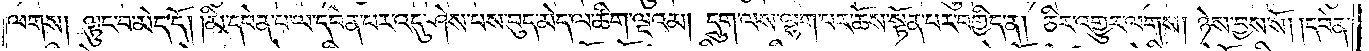ལགས། ལྟུང་བ་མེད་དོ། །མི་དབེན་པ་ལ་དབེན་པར་འདུ་ཤེས་པས་བུད་མེད་ལ་ཚིག་ལྔའམ། དྲུག་ལས་ལྷག་པར་ཆོས་སྟོན་པར་བགྱིད་ན། ཅིར་འགྱུར་ལགས། ཉེས་བྱས་སོ། །དབེན་
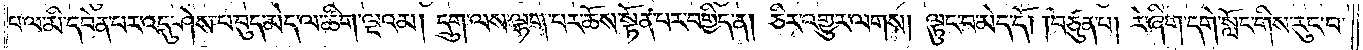པ་ལ་མི་དབེན་པར་འདུ་ཤེས་པ་བུད་མེད་ལ་ཚིག་ལྔའམ། དྲུག་ལས་ལྷག་པར་ཆོས་སྟོན་པར་བགྱིད་ན། ཅིར་འགྱུར་ལགས། ལྟུང་བ་མེད་དོ། །བཙུན་པ། རེ་ཞིག་དགེ་སློང་གིས་རུང་བ་
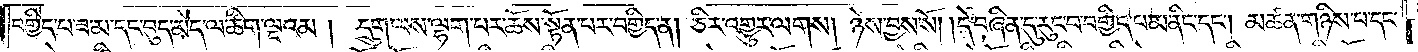བགྱིད་པ་ཟ་མ་དང་བུད་མེད་ལ་ཚིག་ལྔའམ།  དྲུག་ལས་ལྷག་པར་ཆོས་སྟོན་པར་བགྱིད་ན། ཅིར་འགྱུར་ལགས། ཉེས་བྱས་སོ། །དེ་བཞིན་དུ་རུང་བ་བགྱིད་པ་མ་ནིང་དང༌། མཚན་གཉིས་པ་དང་
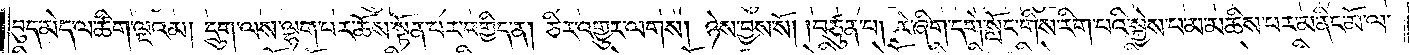བུད་མེད་ལ་ཚིག་ལྔའམ། དྲུག་ལས་ལྷག་པར་ཆོས་སྟོན་པར་བགྱིད་ན། ཅིར་འགྱུར་ལགས། ཉེས་བྱས་སོ། །བཙུན་པ། རེ་ཞིག་དགེ་སློང་གིས་རིག་པའི་སྐྱེས་པ་མ་མཆིས་པར་མ་ནིང་མོ་ལ་
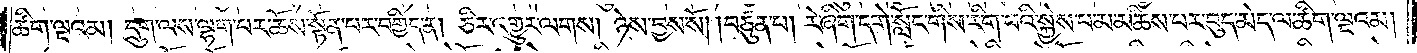ཚིག་ལྔའམ། དྲུག་ལས་ལྷག་པར་ཆོས་སྟོན་པར་བགྱིད་ན། ཅིར་འགྱུར་ལགས། ཉེས་བྱས་སོ། །བཙུན་པ། རེ་ཞིག་དགེ་སློང་གིས་རིག་པའི་སྐྱེས་པ་མ་མཆིས་པར་བུད་མེད་ལ་ཚིག་ལྔའམ།
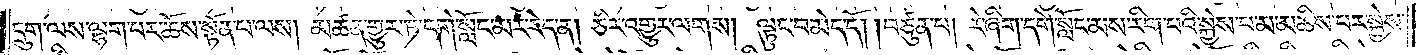དྲུག་ལས་ལྷག་པར་ཆོས་སྟོན་པ་ལས། མཚན་གྱུར་ཏེ་དགེ་སློང་མར་རེད་ན། ཅིར་འགྱུར་ལགས། ལྟུང་བ་མེད་དོ། །བཙུན་པ། རེ་ཞིག་དགེ་སློང་མས་རིག་པའི་སྐྱེས་པ་མ་མཆིས་པར་སྐྱེས་
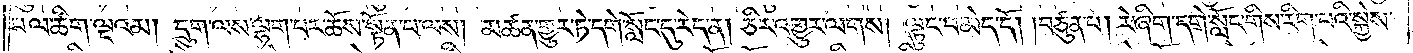པ་ལ་ཚིག་ལྔའམ། དྲུག་ལས་ལྷག་པར་ཆོས་སྟོན་པ་ལས། མཚན་གྱུར་ཏེ་དགེ་སློང་དུ་རེད་ན། ཅིར་འགྱུར་ལགས། ལྟུང་བ་མེད་དོ། །བཙུན་པ། རེ་ཞིག་དགེ་སློང་གིས་རིག་པའི་སྐྱེས་
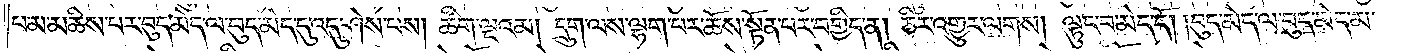པ་མ་མཆིས་པར་བུད་མེད་ལ་བུད་མེད་དུ་འདུ་ཤེས་པས། ཚིག་ལྔའམ། དྲུག་ལས་ལྷག་པར་ཆོས་སྟོན་པར་བགྱིད་ན། ཅིར་འགྱུར་ལགས། ལྟུང་བ་མེད་དོ། །བུད་མེད་ལ་བུད་མེད་མ་
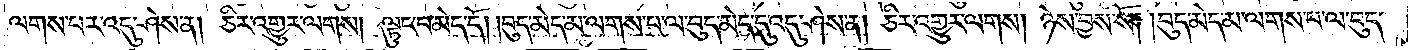ལགས་པར་འདུ་ཤེས་ན། ཅིར་འགྱུར་ལགས། ལྟུང་བ་མེད་དོ། །བུད་མེད་མ་ལགས་པ་ལ་བུད་མེད་དུ་འདུ་ཤེས་ན། ཅིར་འགྱུར་ལགས། ཉེས་བྱས་སོ། །བུད་མེད་མ་ལགས་པ་ལ་བུད་
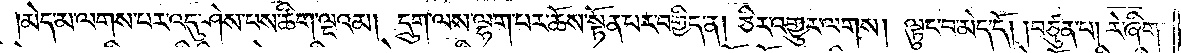མེད་མ་ལགས་པར་འདུ་ཤེས་པས་ཚིག་ལྔའམ། དྲུག་ལས་ལྷག་པར་ཆོས་སྟོན་པར་བགྱིད་ན། ཅིར་འགྱུར་ལགས། ལྟུང་བ་མེད་དོ། །བཙུན་པ། རེ་ཞིག་
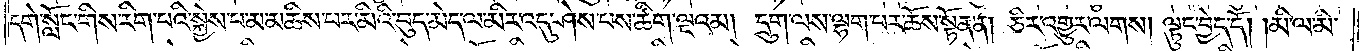དགེ་སློང་གིས་རིག་པའི་སྐྱེས་པ་མ་མཆིས་པར་མིའི་བུད་མེད་ལ་མིར་འདུ་ཤེས་པས་ཚིག་ལྔའམ། དྲུག་ལས་ལྷག་པར་ཆོས་སྟོན་ན། ཅིར་འགྱུར་ལགས། ལྟུང་བྱེད་དོ། །མི་ལ་མི་
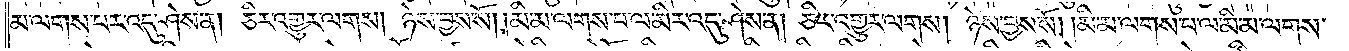མ་ལགས་པར་འདུ་ཤེས་ན། ཅིར་འགྱུར་ལགས། ཉེས་བྱས་སོ། །མི་མ་ལགས་པ་ལ་མིར་འདུ་ཤེས་ན། ཅིར་འགྱུར་ལགས། ཉེས་བྱས་སོ། །མི་མ་ལགས་པ་ལ་མི་མ་ལགས་
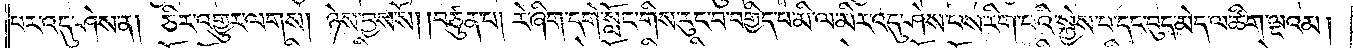པར་འདུ་ཤེས་ན། ཅིར་འགྱུར་ལགས། ཉེས་བྱས་སོ། །བཙུན་པ། རེ་ཞིག་དགེ་སློང་གིས་རུང་བ་བགྱིད་པ་མི་ལ་མིར་འདུ་ཤེས་པས་རིག་པའི་སྐྱེས་པ་དང་བུད་མེད་ལ་ཚིག་ལྔའམ།
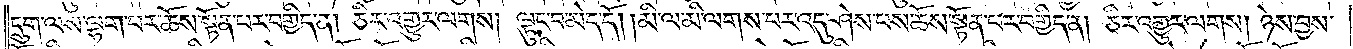དྲུག་ལས་ལྷག་པར་ཆོས་སྟོན་པར་བགྱིད་ན། ཅིར་འགྱུར་ལགས། ལྟུང་བ་མེད་དོ། །མི་ལ་མི་ལགས་པར་འདུ་ཤེས་པས་ཆོས་སྟོན་པར་བགྱིད་ན། ཅིར་འགྱུར་ལགས། ཉེས་བྱས་
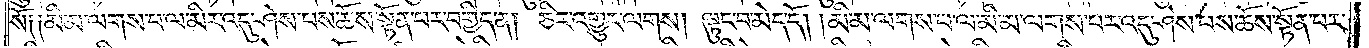སོ༑ ༑མི་མ་ལགས་པ་ལ་མིར་འདུ་ཤེས་པས་ཆོས་སྟོན་པར་བགྱིད་ན། ཅིར་འགྱུར་ལགས། ལྟུང་བ་མེད་དོ། །མི་མ་ལགས་པ་ལ་མི་མ་ལགས་པར་འདུ་ཤེས་པས་ཆོས་སྟོན་པར་
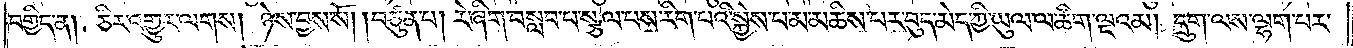བགྱིད་ན། ཅིར་འགྱུར་ལགས། ཉེས་བྱས་སོ། །བཙུན་པ། རེ་ཞིག་བསླབ་པ་སྩལ་པས་རིག་པའི་སྐྱེས་པ་མ་མཆིས་པར་བུད་མེད་ཀྱི་ཡུལ་ལ་ཚིག་ལྔའམ། དྲུག་ལས་ལྷག་པར་
